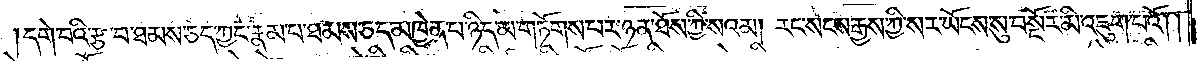དགེ་བའི་རྩ་བ་ཐམས་ཅད་ཀྱང་རྣམ་པ་ཐམས་ཅད་མཁྱེན་པ་ཉིད་མ་གཏོགས་པར་ཉན་ཐོས་ཀྱི་སའམ། རང་སངས་རྒྱས་ཀྱི་སར་ཡོངས་སུ་བསྔོར་མི་འཇུག་པའོ། །
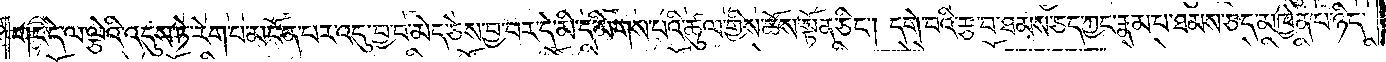གང་དེ་ལ་ལྕེའི་འདུས་ཏེ་རེག་པ་མངོན་པར་འདུ་བྱ་བ་མེད་ཅེས་བྱ་བར་དེ་མི་དམིགས་པའི་ཚུལ་གྱིས་ཆོས་སྟོན་ཅིང༌། དགེ་བའི་རྩ་བ་ཐམས་ཅད་ཀྱང་རྣམ་པ་ཐམས་ཅད་མཁྱེན་པ་ཉིད་
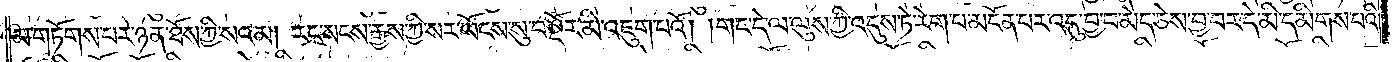མ་གཏོགས་པར་ཉན་ཐོས་ཀྱི་སའམ། རང་སངས་རྒྱས་ཀྱི་སར་ཡོངས་སུ་བསྔོར་མི་འཇུག་པའོ། །གང་དེ་ལ་ལུས་ཀྱི་འདུས་ཏེ་རེག་པ་མངོན་པར་འདུ་བྱ་བ་མེད་ཅེས་བྱ་བར་དེ་མི་དམིགས་པའི་
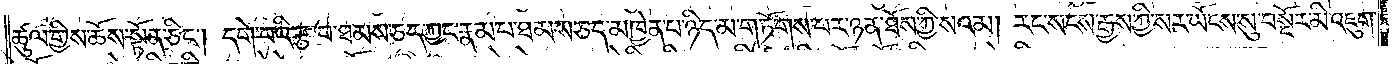ཚུལ་གྱིས་ཆོས་སྟོན་ཅིང༌། དགེ་བའི་རྩ་བ་ཐམས་ཅད་ཀྱང་རྣམ་པ་ཐམས་ཅད་མཁྱེན་པ་ཉིད་མ་གཏོགས་པར་ཉན་ཐོས་ཀྱི་སའམ། རང་སངས་རྒྱས་ཀྱི་སར་ཡོངས་སུ་བསྔོར་མི་འཇུག་
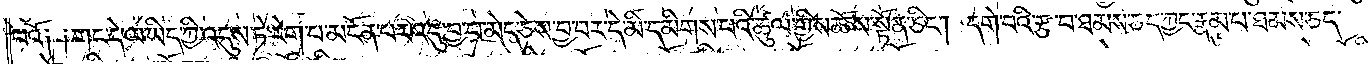པའོ༑ ༑གང་དེ་ལ་ཡིད་ཀྱི་འདུས་ཏེ་རེག་པ་མངོན་པར་འདུ་བྱ་བ་མེད་ཅེས་བྱ་བར་དེ་མི་དམིགས་པའི་ཚུལ་གྱིས་ཆོས་སྟོན་ཅིང༌། དགེ་བའི་རྩ་བ་ཐམས་ཅད་ཀྱང་རྣམ་པ་ཐམས་ཅད་
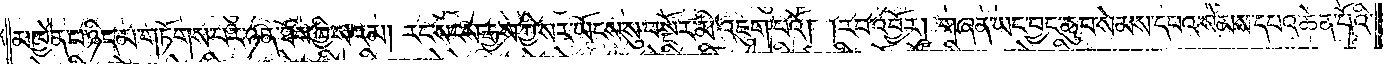མཁྱེན་པ་ཉིད་མ་གཏོགས་པར་ཉན་ཐོས་ཀྱི་སའམ། རང་སངས་རྒྱས་ཀྱི་སར་ཡོངས་སུ་བསྔོར་མི་འཇུག་པའོ། །རབ་འབྱོར། གཞན་ཡང་བྱང་ཆུབ་སེམས་དཔའ་སེམས་དཔའ་ཆེན་པོའི་
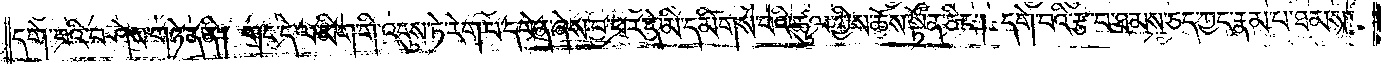དག་བའི་བཤེས་གཉེན་ནི། གང་དེ་ལ་མིག་གི་འདུས་ཏེ་རེག་པ་དབེན་ཞེས་བྱ་བར་དེ་མི་དམིགས་པའི་ཚུལ་གྱིས་ཆོས་སྟོན་ཅིང༌། དགེ་བའི་རྩ་བ་ཐམས་ཅད་ཀྱང་རྣམ་པ་ཐམས་
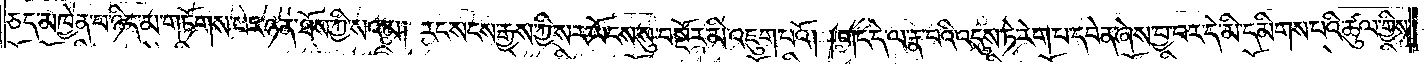ཅད་མཁྱེན་པ་ཉིད་མ་གཏོགས་པར་ཉན་ཐོས་ཀྱི་སའམ། རང་སངས་རྒྱས་ཀྱི་སར་ཡོངས་སུ་བསྔོར་མི་འཇུག་པའོ། །གང་དེ་ལ་རྣ་བའི་འདུས་ཏེ་རེག་པ་དབེན་ཞེས་བྱ་བར་དེ་མི་དམིགས་པའི་ཚུལ་གྱིས་
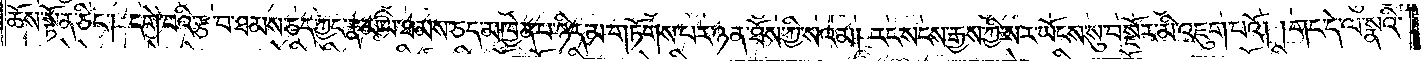ཆོས་སྟོན་ཅིང༌། དགེ་བའི་རྩ་བ་ཐམས་ཅད་ཀྱང་རྣམ་པ་ཐམས་ཅད་མཁྱེན་པ་ཉིད་མ་གཏོགས་པར་ཉན་ཐོས་ཀྱི་སའམ། རང་སངས་རྒྱས་ཀྱི་སར་ཡོངས་སུ་བསྔོར་མི་འཇུག་པའོ། །གང་དེ་ལ་སྣའི་
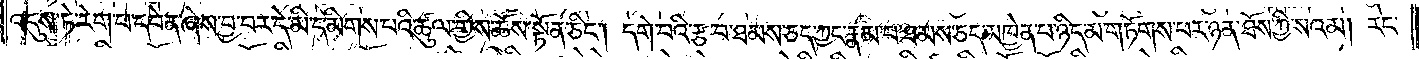འདུས་ཏེ་རེག་པ་དབེན་ཞེས་བྱ་བར་དེ་མི་དམིགས་པའི་ཚུལ་གྱིས་ཆོས་སྟོན་ཅིང༌། དགེ་བའི་རྩ་བ་ཐམས་ཅད་ཀྱང་རྣམ་པ་ཐམས་ཅད་མཁྱེན་པ་ཉིད་མ་གཏོགས་པར་ཉན་ཐོས་ཀྱི་སའམ། རང་
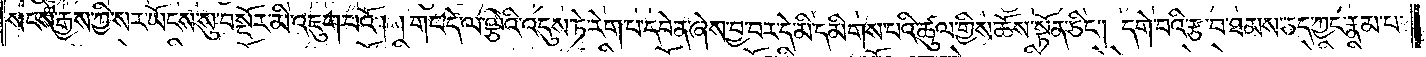སངས་རྒྱས་ཀྱི་སར་ཡོངས་སུ་བསྔོར་མི་འཇུག་པའོ། །གང་དེ་ལ་ལྕེའི་འདུས་ཏེ་རེག་པ་དབེན་ཞེས་བྱ་བར་དེ་མི་དམིགས་པའི་ཚུལ་གྱིས་ཆོས་སྟོན་ཅིང༌། དགེ་བའི་རྩ་བ་ཐམས་ཅད་ཀྱང་རྣམ་པ་
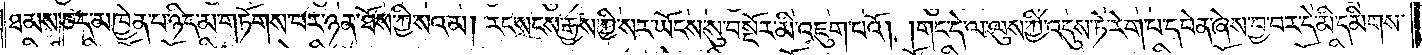ཐམས་ཅད་མཁྱེན་པ་ཉིད་མ་གཏོགས་པར་ཉན་ཐོས་ཀྱི་སའམ། རང་སངས་རྒྱས་ཀྱི་སར་ཡོངས་སུ་བསྔོར་མི་འཇུག་པའོ། །གང་དེ་ལ་ལུས་ཀྱི་འདུས་ཏེ་རེག་པ་དབེན་ཞེས་བྱ་བར་དེ་མི་དམིགས་
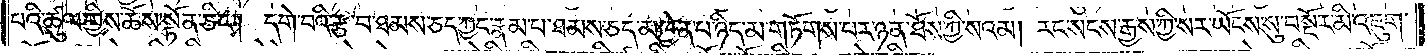པའི་ཚུལ་གྱིས་ཆོས་སྟོན་ཅིང༌། དགེ་བའི་རྩ་བ་ཐམས་ཅད་ཀྱང་རྣམ་པ་ཐམས་ཅད་མཁྱེན་པ་ཉིད་མ་གཏོགས་པར་ཉན་ཐོས་ཀྱི་སའམ། རང་སངས་རྒྱས་ཀྱི་སར་ཡོངས་སུ་བསྔོར་མི་འཇུག་
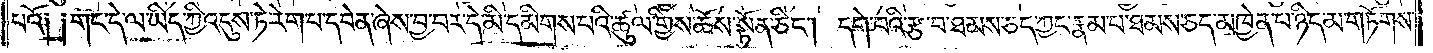པའོ༑ ༑གང་དེ་ལ་ཡིད་ཀྱི་འདུས་ཏེ་རེག་པ་དབེན་ཞེས་བྱ་བར་དེ་མི་དམིགས་པའི་ཚུལ་གྱིས་ཆོས་སྟོན་ཅིང༌། དགེ་བའི་རྩ་བ་ཐམས་ཅད་ཀྱང་རྣམ་པ་ཐམས་ཅད་མཁྱེན་པ་ཉིད་མ་གཏོགས་
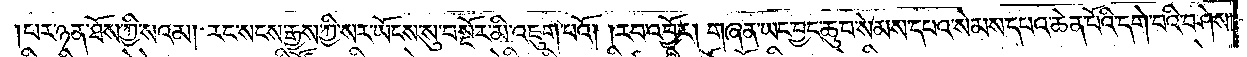པར་ཉན་ཐོས་ཀྱི་སའམ། རང་སངས་རྒྱས་ཀྱི་སར་ཡོངས་སུ་བསྔོར་མི་འཇུག་པའོ། །རབ་འབྱོར། གཞན་ཡང་བྱང་ཆུབ་སེམས་དཔའ་སེམས་དཔའ་ཆེན་པོའི་དགེ་བའི་བཤེས་
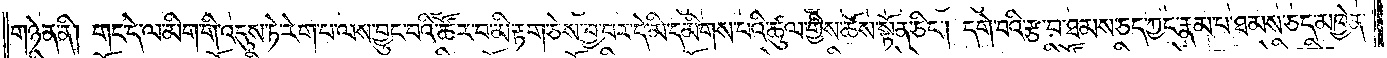གཉེན་ནི། གང་དེ་ལ་མིག་གི་འདུས་ཏེ་རེག་པ་ལས་བྱུང་བའི་ཚོར་བ་མི་རྟག་ཅེས་བྱ་བར་དེ་མི་དམིགས་པའི་ཚུལ་གྱིས་ཆོས་སྟོན་ཅིང༌། དགེ་བའི་རྩ་བ་ཐམས་ཅད་ཀྱང་རྣམ་པ་ཐམས་ཅད་མཁྱེན་
